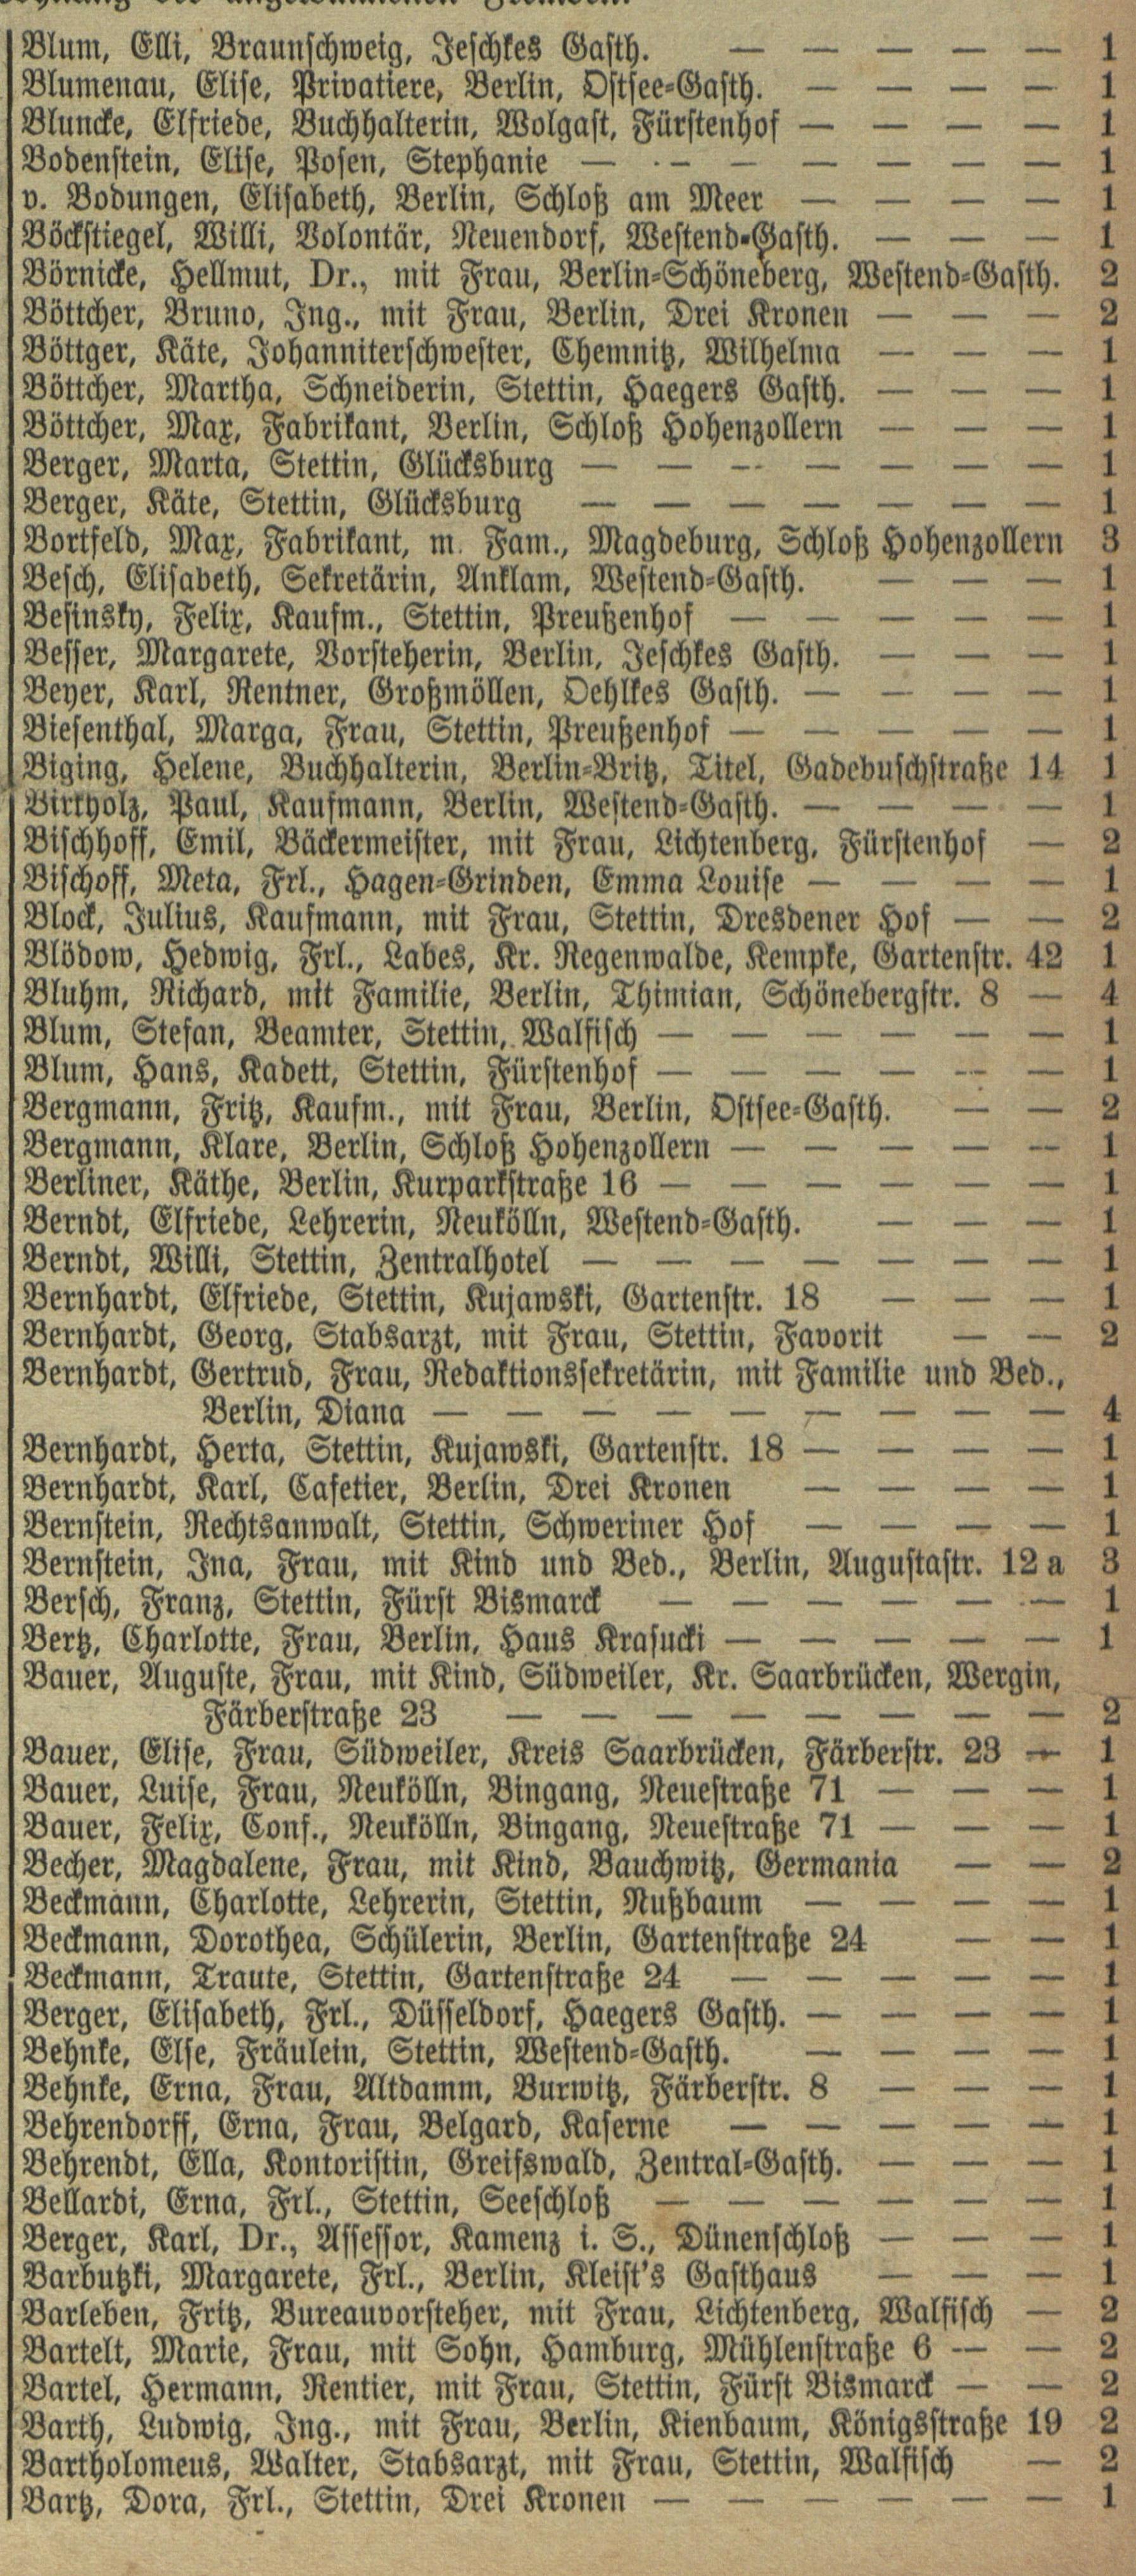Blum, Elli, , Braunschweig, Jeschkes Gasth. | 1
Blumenau, Elise, Privatiere, Berlin, Ostsee=Gasth. | 1
Bluncke, Elfriede, Buchhalterin, Wolgast, Fürstenhof | 1
Bodenstein, Slise, , Posen, Stephanie | 1
v. Bodungen, Elisabeth, , Berlin, Schloß am Meer | 1
Böckstiegel, Willi, Volontär, Neuendorf, Westend=Gasth. | 1
Börnicke, Hellmut, Dr., mit Frau, Berlin=Schöneberg, Westend=Gasth. | 2
Böttcher, Bruno, Ing., mit Frau, Berlin, Drei Kronen | 2
Böttger, Käte, Johanniterschwester, Schemnitz, Wilhelma | 1
Böttcher, Martha, Schneiderin, Stettin, Haegers Gasth. | 1
Böttcher, Max, Fabrikant, Berlin, Schloß Hohenzollern | 1
Berger, Marta, Stettin, Glücksburg | 1
Berger, Käte, Stettin, Glücksburg | 1
Bortfeld, Max, Fabrikant, m. Fam., Magdeburg, Schloß Hohenzollern | 3
Besch, Elisabeth, Sekretärin, Anklam, Westend=Gasth. | 1
Besinsky, Felix, Kaufm., Stettin, Preußenhof | 1
Besser, Margarete, Vorsteherin, Berlin, Jeschkes Gasth. | 1
Beyer, Karl, Rentner, Großmöllen, Oehlkes Gasth. | 1
Biesenthal, Marga, Frau, Stettin, Preußenhof | 1
Biging, Helene, Buchhalterin, Berlin=Britz, Titel, Gadebuschstraße 14 | 1
Birkholz, Paul, Kaufmann, Berlin, Westend=Gasth. | 1
Bischhoff, Emil, Bäckermeister, mit Frau, Lichtenberg, Fürstenhof | 2
Bischoff, Meta, Frl., Hagen=Grinden, Emma Louise | 1
Block, Julius, Kaufmann, mit Frau, Stettin, Dresdener Hof | 2
Blödow, Hedwig, Frl., Labes, Kr. Regenwalde, Kempke, Gartenstr. 42 | 1
Bluhm, Richard, mit Familie, Berlin, Thimian, Schönebergstr. 8 | 4
Blum, Stefan, Beamter, Stettin, Walfisch | 1
Blum, Hans, Kadett, Stettin, Fürstenhof | 1
Bergmann, Fritz, Kaufm., mit Frau, Berlin, Ostsee=Gasth. | 2
Bergmann, Klare, Berlin, Schloß Hohenzollern | 1
Berliner, Käthe, Berlin, Kurparkstraße 16 | 1
Berndt, Elfriede, Lehrerin, Neukölln, Westend=Gasth. | 1
Berndt, Willi, Stettin, Zentralhotel | 1
Bernhardt, Elfriede, Stettin, Kujawski, Gartenstr. 18 | 1
Bernhardt, Georg, Stabsarzt, Stettin, Favorit | 2
Bernhardt, Gertrud, Frau Redaktionssekretärin, mit Familie und Bed.,
Berlin, Diana | 4
Bernhardt, Herta, Stettin, Kujawski, Gartenstr. 18 | 1
Bernhardt, Karl, Cafetier, Berlin, Drei Kronen | 1
Bernstein, Rechtsanwalt, Stettin, Schweriner Hof | 1
Bernstein, Ina, Frau, mit Kind und Bed., Berlin, Augustastr. 12a | 3
Bersch, Franz, Stettin, Fürst Bismarck | 1
Bertz, Charlotte, Frau, Berlin, Haus Krasucki | 1
Bauer, Auguste, Frau, mit Kind, Südweiler, Kr. Saarbrücken, Wergin,
Färberstraße 23 | 2
Bauer, Elise, Frau, Südweiler, Krais Saarbrücken, Färberstr. 23 | 1
Bauer, Luise, Frau, Neukölln, Bingang, Neuestraße 71 | 1
Bauer, Felix, Conf., Neukölln, Bingang, Neuestraße 71 | 1
Becher, Magdalene, Frau, mit Kind, Bauchwitz, Germania | 2
Beckmann, Charlotte, Lehrerin, Stettin, Nußbaum | 1
Beckmann, Dorothea, Schülerin, Berlin, Gartenstraße 24 | 1
Beckmann, Traute, Stettin, Gartenstraße 24 | 1
Berger, Elisabeth, Frl., Düsseldorf, Haegers Gasth. | 1
Behnke, Else, Fräulein, Stettin, Westend=Gasth. | 1
Behnke, Erna, Frau, Altdamm, Burwitz, Färberstr. 8 | 1
Behrendorff, Erna, Frau, Belgard, Kaserne | 1
Behrendt, Ella, Kontoristin, Greifswald, Zentral=Gasth. | 1
Bellardi, Erna, Frl., Stettin, Seeschloß | 1
Berger, Karl, Dr., Assessor, Kamenz i. S., Dünenschloß | 1
Barbutzki, Margarete, Frl., Berlin, Kleist's Gasthaus | 1
Barleben, Fritz, Bureauvorsteher, mit Frau, Lichtenberg, Walfisch | 2
Bartelt, Marie, Frau, mit Sohn, Hamburg, Mühlenstraße 6 | 2
Bartel, Hermann, Rentier, mit Frau, Stettin, Fürst Bismarck | 2
Barth, Ludwig, Ing., mit Frau, Berlin, Kienbaum, Königsstraße 19 |
Bartholomeus, Walter, Stabsarzt, mit Frau, Stettin, Walfisch | 2
Bartz, Dora, Frl., Stettin, Drei Kronen | 1
